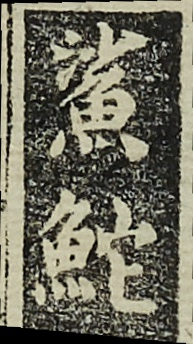鯊鮀
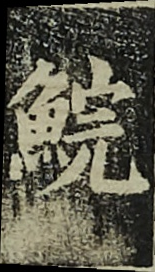鯇
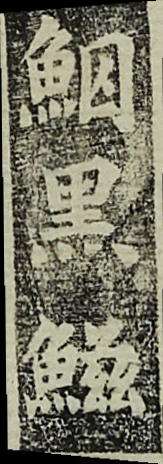鮂黑鰦
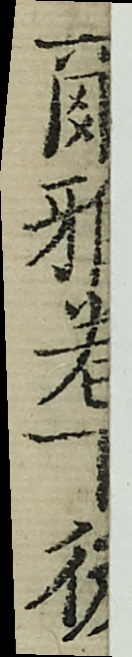爾雅卷下後
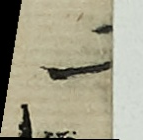二
